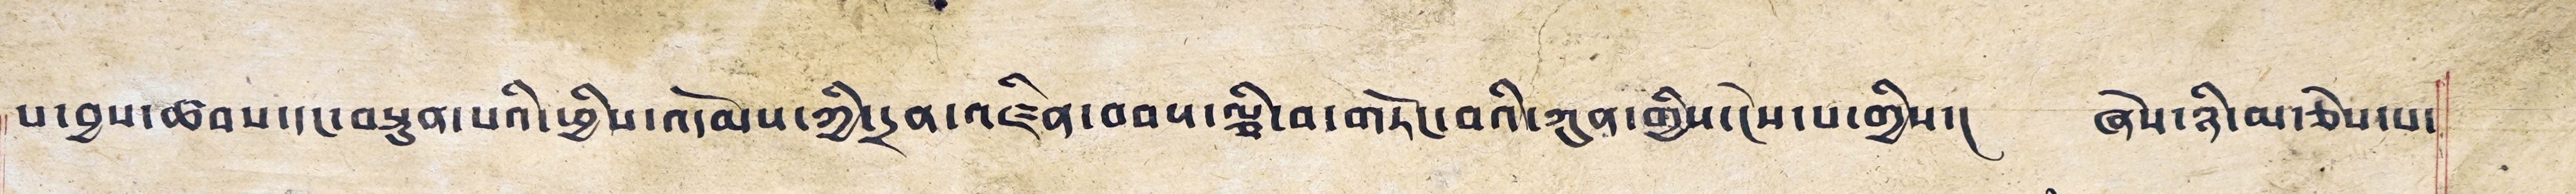པ་བྱས་ཚབས་དང་བསྟུན་པའི་ཕྱིས་འདོམས་ཀྱི་དྲན་འཛིན་བབས་ལྕི་བ་གཏོང་བའི་ཀུན་གྱིས་ངེས་པ་གྱིས་། ཞེས་ཉི་མ་ཅེས་པ་
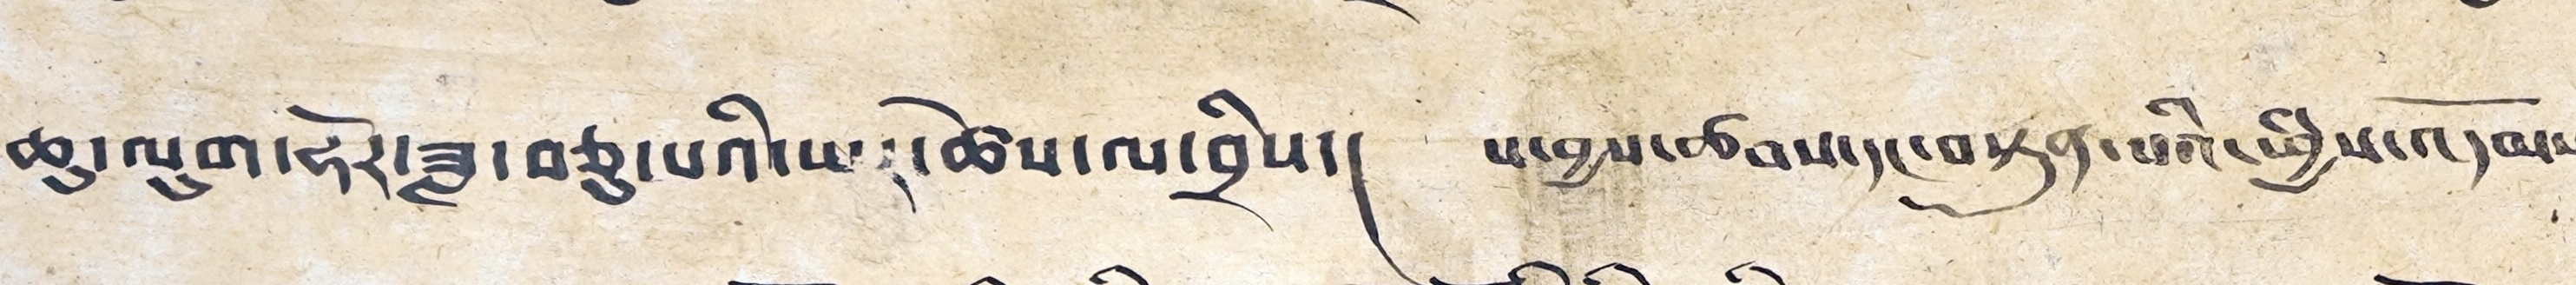ཆུ་ལུག་ཧོར་ཟླ་བཅུ་པའི་ཡར་ཚེས་ལ་བྲིས། པ་བྱས་ཚབས་དང་བསྟུན་པའི་ཕྱིས་འདོམས། ལྕགས་གྲོང་བསམ་ནི་མ་ཡོང་། དམ་ཆོས་
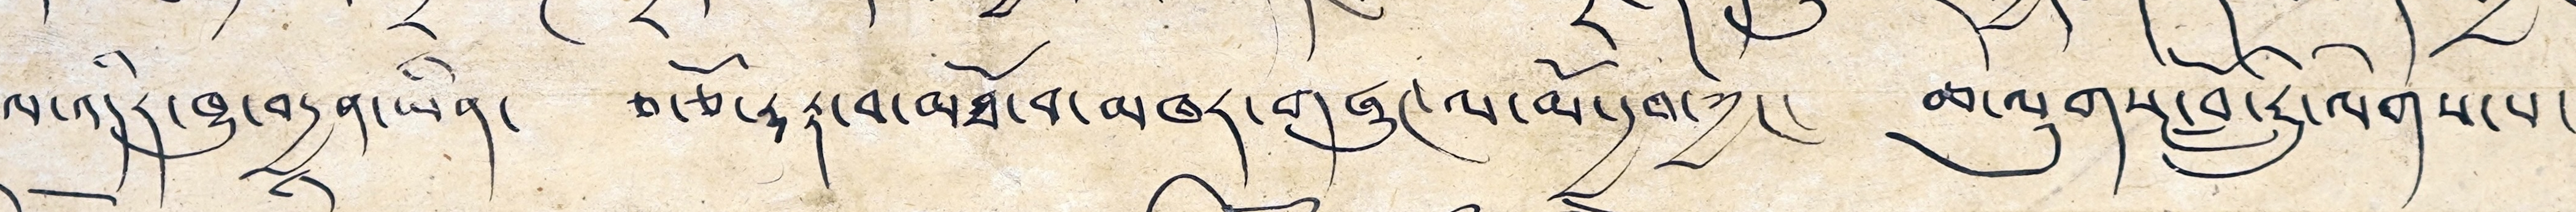ཁུལ་འདིར་ཁྱུ་བརྒྱན་ཡིན། ཅ་ཅོ་རྡརྟ་བ་མཐོ་བ་མཁར་གཞུང་ལ་མོ་དྱབ་ཀྱང་། ཆ་ལུགསང་བློ་ཏགྱུ་ལེགས་པ་
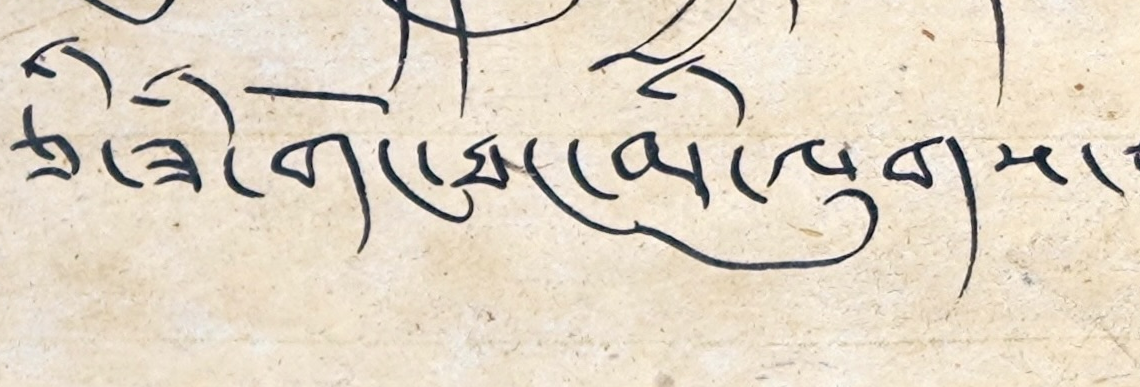ཅི་ཟི་གོང་ཐང་མི་ལུགས་ཨ་ཡ། དེ་དོན་་་་་་་་་་ཨ་ཡ།
